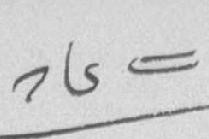༡༦༤
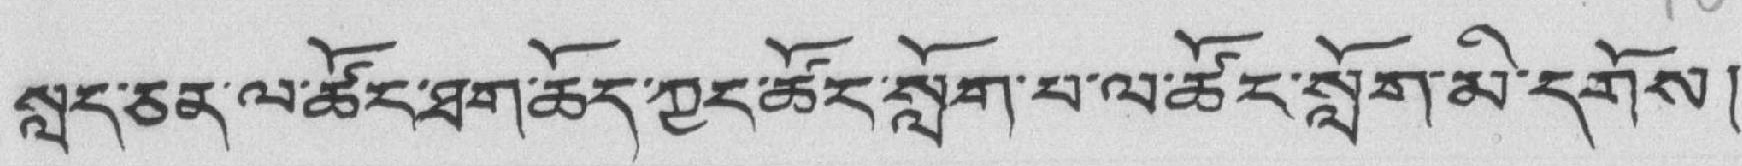སླད་ཅན་ལ་ཚོང་ཐག་ཆོད་ཀྱང་ཚོང་སློག་པ་ལ་ཚོང་སློག་མི་དགོས།
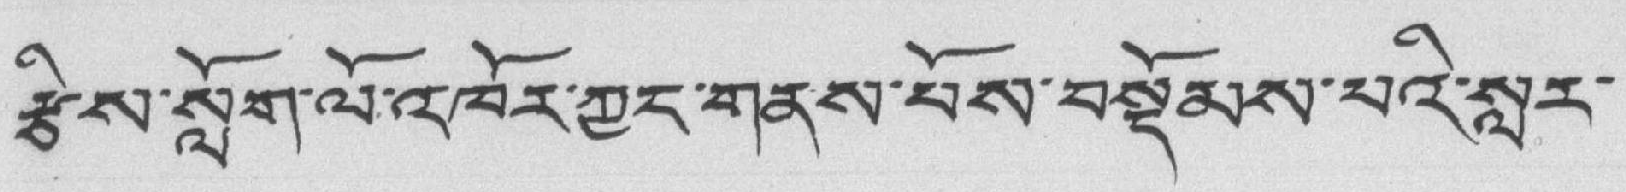རྩིས་སློག་ལོ་འཁོར་ཀྱང་གནས་པོས་བསྡོམས་པའི་སླར་
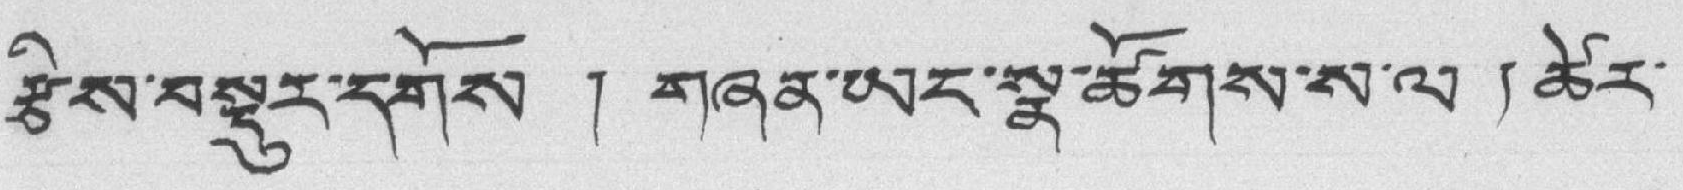རྩིས་བསྡུར་དགོས ། གཞན་ཡང་སྣ་ཚོགས་ས་ལ ། ཚེར་
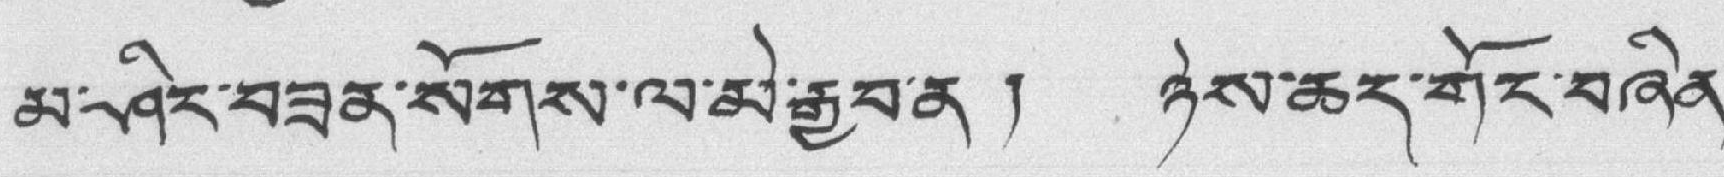མ་ཤིང་བཟན་སོགས་ལ་མེ་རྒྱབ་ན ། ཉེས་ཆད་གོང་བཞིན་
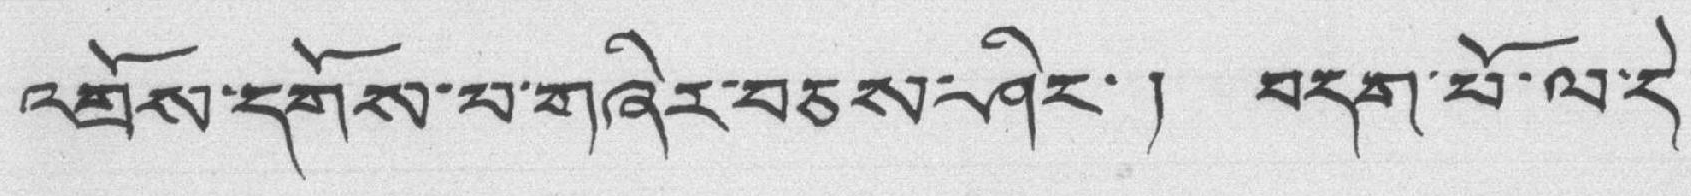འགྲོས་དགོས་པ་གཞིར་བཅས་ཤིང་། བདག་པོ་ལ་དེ་
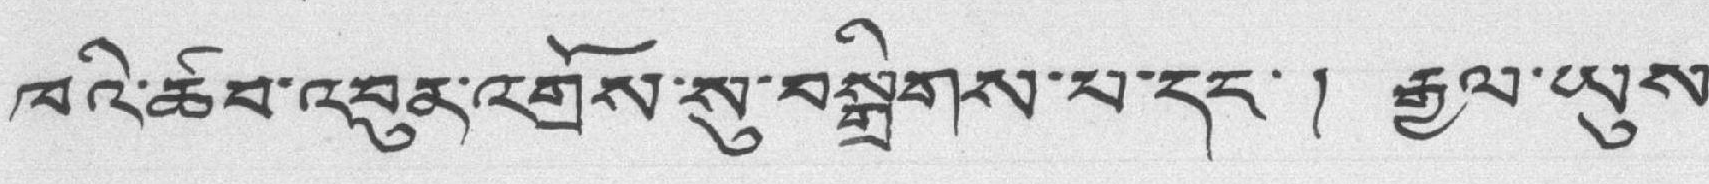ཁའི་ཚབ་འབུན་འགྲོས་སུ་བསྒྲིགས་པ་དང་ ། རྒྱལ་ཡུས་
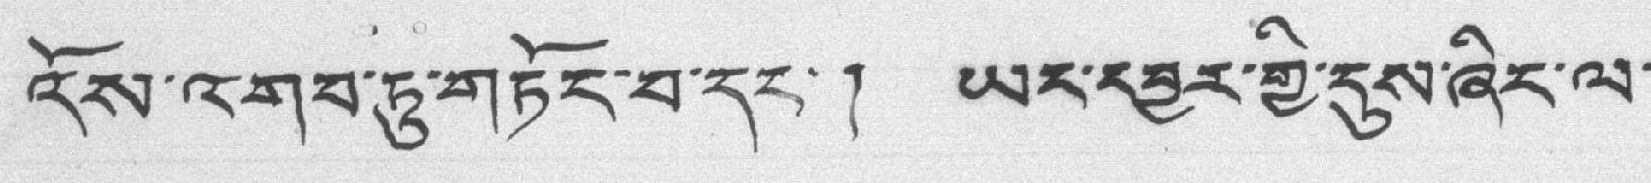འོས་འགབ་ཏུ་གཏོང་བ་དང་། ཡང་དབྱར་གྱི་དུས་ཞིང་ལ་
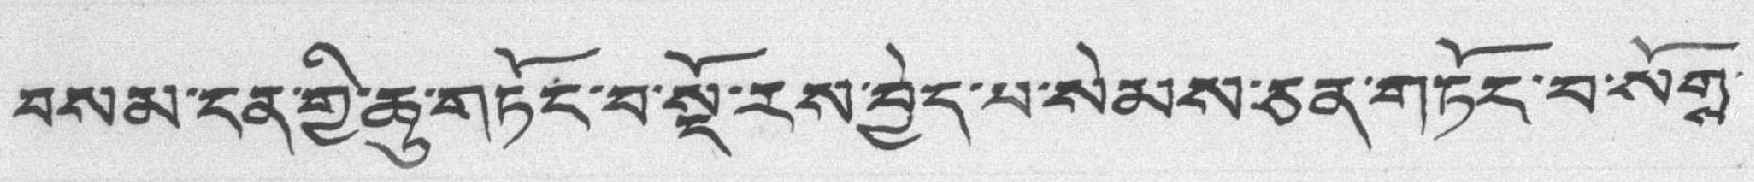བསམ་ངན་གྱི་ཆུ་གཏོང་བ་སྡོ་རས་བྱེད་པ་སེམས་ཅན་གཏོང་བ་སོགས་
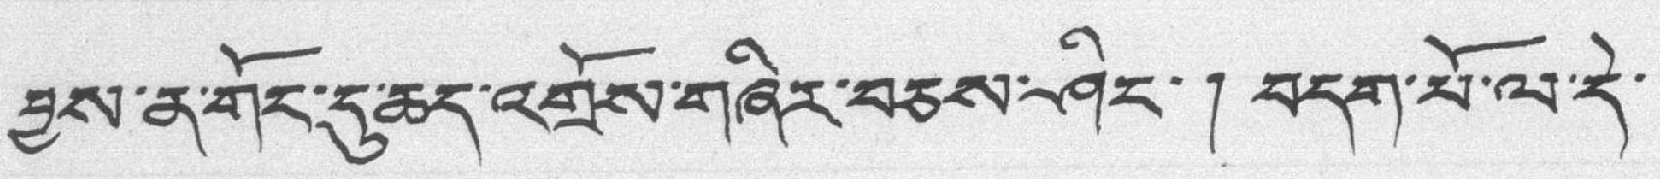བྱས་ན་གོང་དུ་ཆད་འགྲོས་གཞིར་བཅས་ཤིང་ ། བདག་པོ་ལ་དེ་
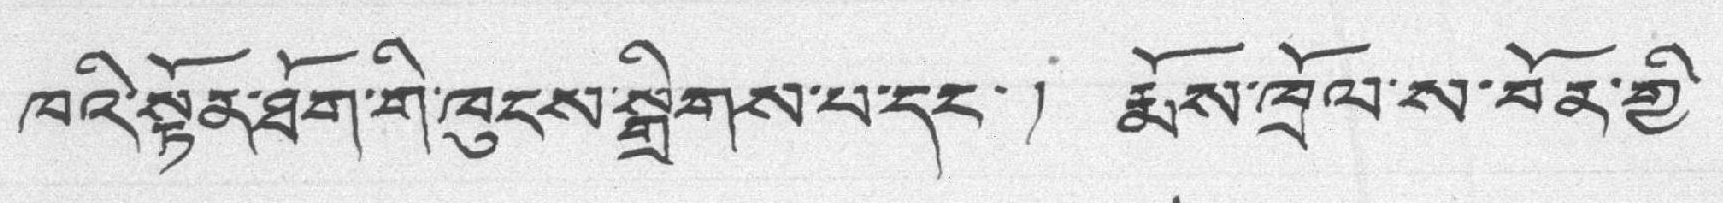ཁའི་སྟོན་ཐོག་གི་ཁུངས་སྒྲིགས་པ་དང་། རྨོས་ཁྲོལ་ས་བོན་གྱི་
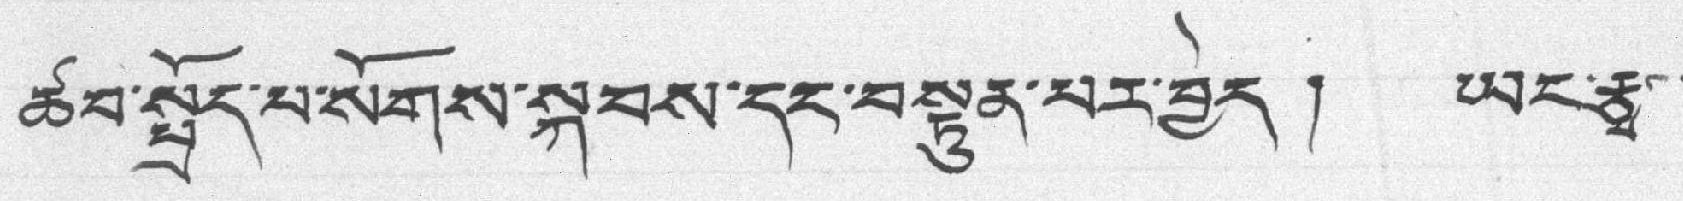ཚབ་སྤྲོད་པ་སོགས་སྐབས་དང་བསྟུན་པར་བྱེད། ཡང་རྩྭ་
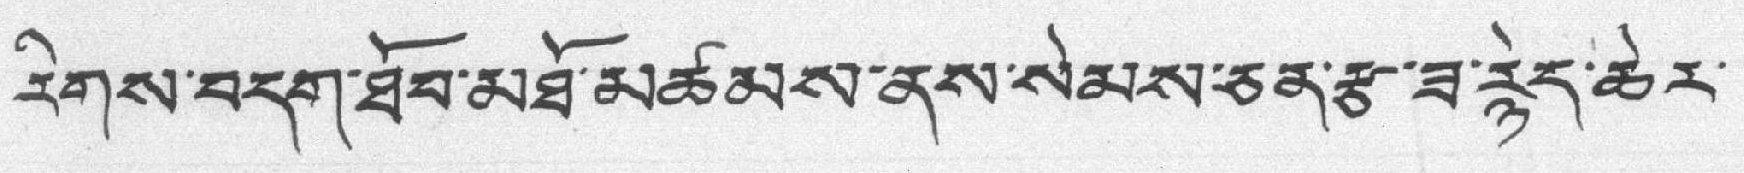རིགས་བདག་ཐོབ་མཐོ་མཚམས་ནས་སེམས་ཅན་རྩ་ཟ་རྙེད་ཆེར་
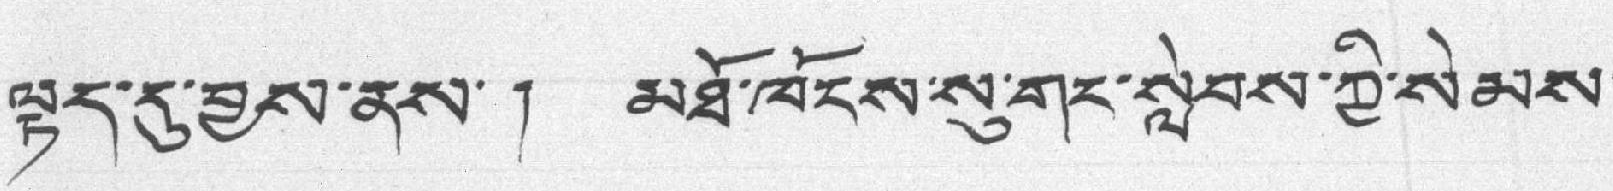ལྟད་དུ་བྱས་ནས་ ། མཐོ་ཁོངས་སུ་གང་སླེབས་ཀྱི་སེམས་
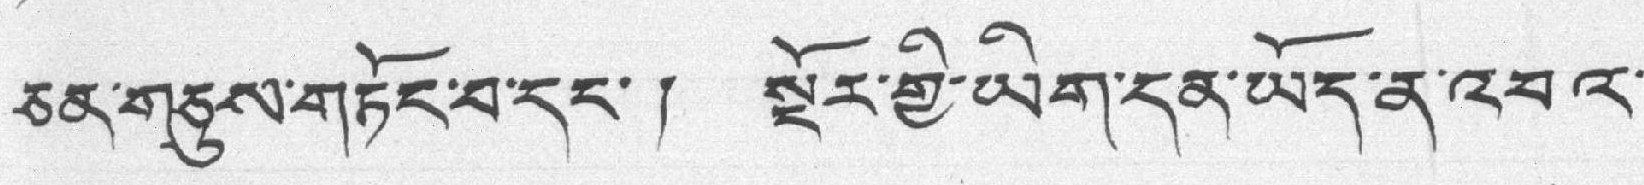ཅན་གཅུས་གཏོང་བ་དང་། སྔོར་གྱི་ཡིག་དན་ཡོད་ན་འབའ་
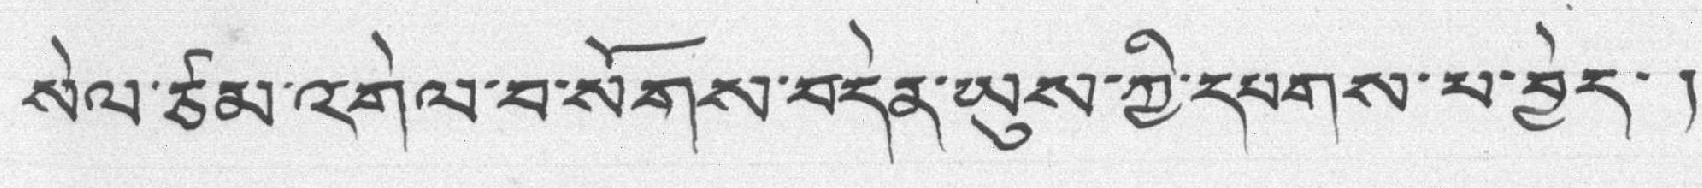སེལ་ཙམ་འགེལ་བ་སོགས་བདེན་ཡུས་ཀྱི་དཔགས་པ་བྱེད་ །
